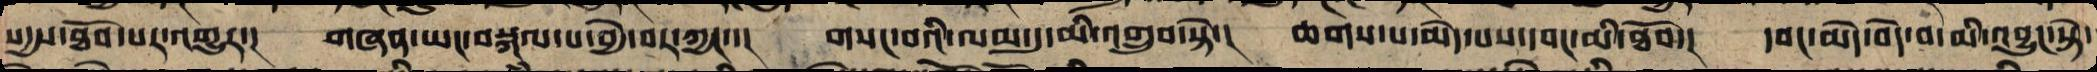སདྱས་ཐོབ་པར་འགྱུར་། གཞན་ཡང་བསྐལ་པ་བྱེ་བར་ཡང་་། གསང་བའི་ལམ་དུ་མི་འགྲུབ་སྟེ་། ཆགས་པ་མེད་པས་དབང་མི་ཐོབ་། དབང་མེད་བདེ་བ་མི་འབྱུང་སྟེ་
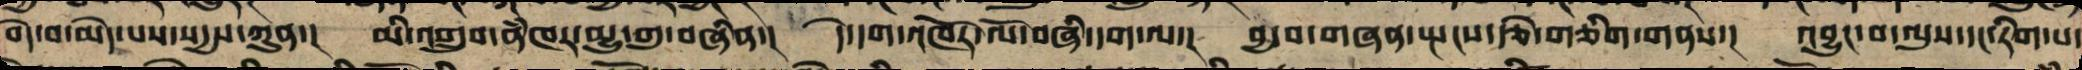བདེ་བ་མེད་པས་སདྱས་ཀུན་། མི་འགྲུབ་ནཾཁར་མྱུ་གུ་བཞིན་། དེ་དག་འཁོར་ལོ་བཞི་དག་ལ་། བྱ་བ་གཞན་སྤངས་རྩེ་གཅིག་གནས་། འབྱུང་བ་ལུས་དང་རིག་པ་
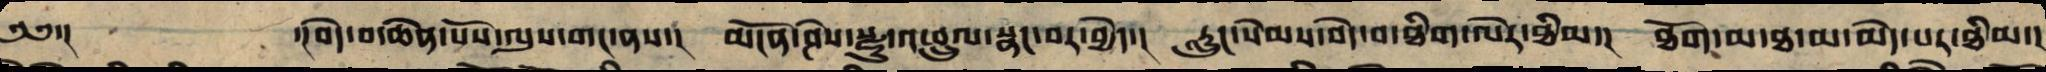༄༅་།  ་།བདེ་བ་ཆེན་པོས་ལུས་གང་ནས་། མངོན་ཤེས་སྫུ་འཕྲུལ་སྣང་བར་བྱེད་། རླུང་སེམས་བདེ་བ་ཐིག་ལེར་ཐིམ་། ཐོག་མ་ཐ་མ་མེད་པར་ཐིམ་།
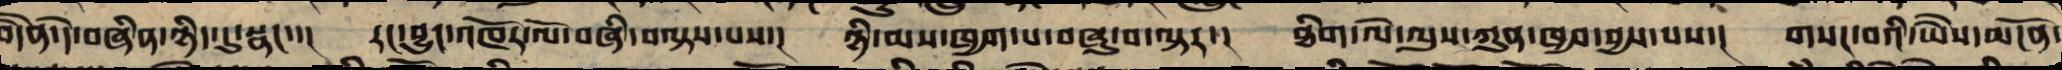བདཻན་དེ་བཞིན་ཉིད་དུ་སྣང་་། རང་བྱུང་འཁོར་ལོ་བཞི་བལྟས་པས་། ཉི་མས་ཁྱག་པ་བཞུ་བ་ལྟར་། ཐིག་ལེ་ལུས་ཀུན་ཁྱབ་བྱས་པས་། གསང་བའི་ཡཻས་མངོན་
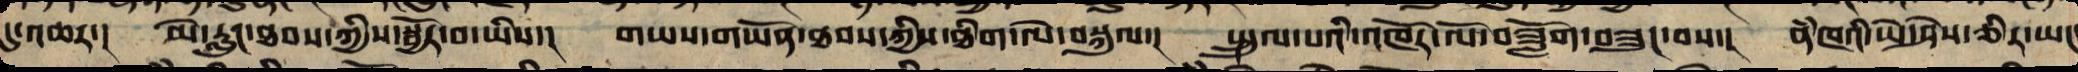དུ་འཆར་། མེ་རླུང་ཐབས་ཀྱི་སྦྱོར་བ་ཡིས་། གཡས་གཡོན་ཐབས་ཀྱི་ཐིག་ལེ་བསྐུལ་། སྤྲུལ་པའི་འཁོར་ལོར་བཟློག་བཟུང་བས་། ནཾཁའི་ཡེ་ཤེས་ཅིར་ཡང་
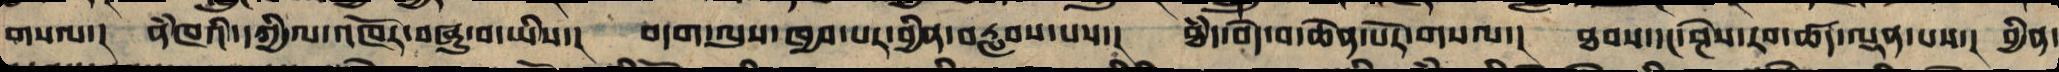གསལ་། ནཾཁའི་དཀྱིལ་འཁོར་བཞུ་བ་ཡིས་། བདག་ལུས་ཁྱབ་པར་བྱིན་བརླབས་པས་། ཐཾད་བདེ་བ་ཆེན་པོར་གསལ་། ཐབས་དང་ཤེས་རབ་ཚད་ལྡན་པས་། བྱིན་
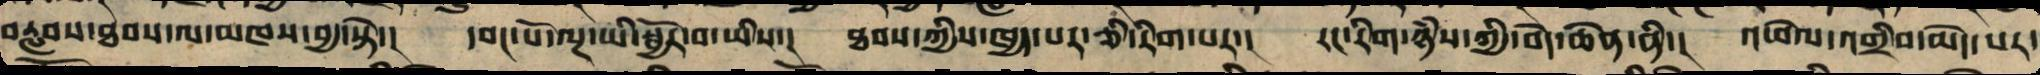བརླབས་ཐབས་ལ་མཁས་བྱ་སྟེ་། དབང་པོ་ལྔ་ཡི་སྦྱོར་བ་ཡིས་། ཐབས་ཀྱིས་ཁྱད་པར་ཅི་རིགས་པར་། རང་རིག་ཉཾས་ཀྱི་བདེ་ཆེན་ནི་། འཕེལ་འགྲིབ་མེད་པར་
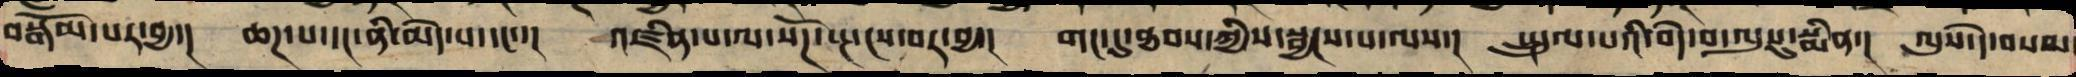བསྒོམ་པར་བྱ་། ཆཌ་པ་དང་ནི་མེད་པ་དང་་། འཛིན་པ་ལ་སོཌ་སྤངས་བར་བྱ་། གང་དུ་ཐབས་ཀྱིས་སྦྱངས་པ་ལས་། སྤྲུལ་པའི་བདེ་བ་ལུསུ་སྨིན་། ལུས་དེ་བསམ
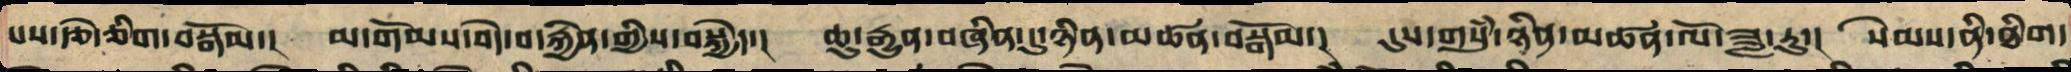པས་རྩེ་གཅིག་བསྒོམ་། མ་གོམས་བདེ་བ་རྐྱེན་གྱིས་བསྐྱེད་། ཆུ་རྒྱུན་བཞིན་དུ་ཉིན་མཚན་བསྒོམ་། དུས་གསུམ་ཉིན་མཚན་ལོ་ཟླ་རུ་། སེམས་ནི་ཐིག་
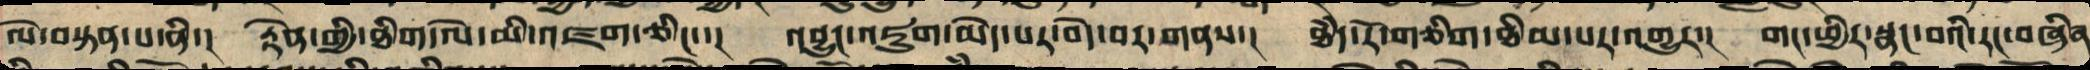ལེ་བསྟན་པ་ནི་། རྟེན་གྱི་ཐིག་ལེ་མི་འཛག་ཅིང་་། འབྱུང་འཇུག་མེད་པར་བདེ་བར་གསལ་། ཐཾད་རོ་གཅིག་ཐིམ་པར་འགྱུར་། གང་ཕྱིར་སྣང་བའི་རང་བཞིན
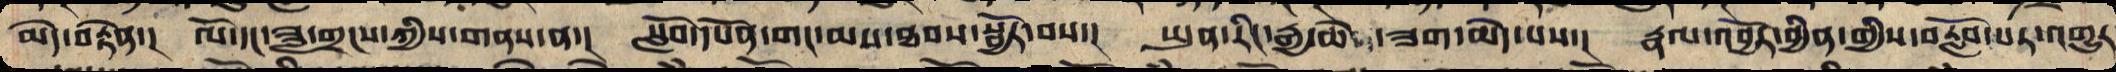མེད་བརྟེན་། ལོ་དང་ཟླ་གྲངས་ཀྱིས་གནས་ན་། སློབ་དཔོན་གོང་མས་ཐབས་སྦྱོར་བས་། ཡུན་རིང་རྒྱ་ཆེ་ཟག་མེད་པས་། རྣལ་འབྱོར་བྱིན་གྱིས་བརློབ་པར་འགྱུར
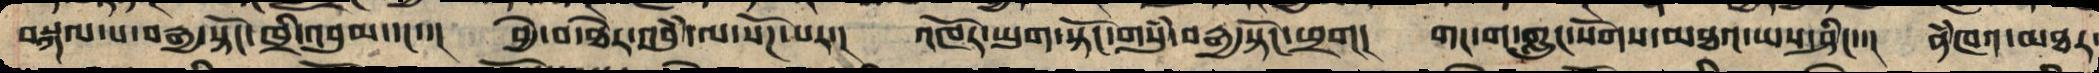བསྐལ་པ་བརྒྱ་སྟོང་ཁྲི་འབུམ་དང་་། བྱེ་བ་ཐེར་འབུཾ་ལ་སོཌ་པར་། འཁོར་ཡུག་སྟོང་གསུཾ་བརྒྱ་སྟོང་ཕྲག། གང་ག་ཀླུང་སོགས་མཐའ་ཡས་ཤིང་་། ནཾཁའ་མཐར་
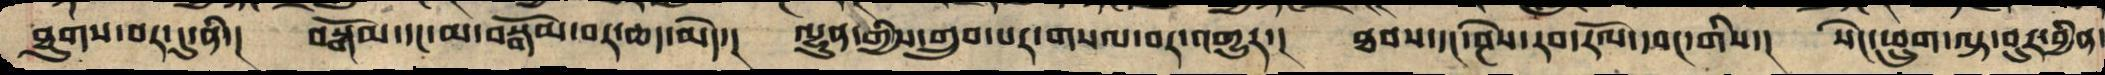ཐུག་བར་དུ་ནི་། བསྒོམ་དང་མ་བསྒོམས་བར་ཆད་མེད་། ལྷུན་གྱིས་གྲུབ་པར་གསལ་བར་འགྱུར་། ཐབས་དང་ཤེས་རབ་རོལ་དབང་གྱིས་། སེང་ཕྲུག་ལྟ་བུར་བྱིན་
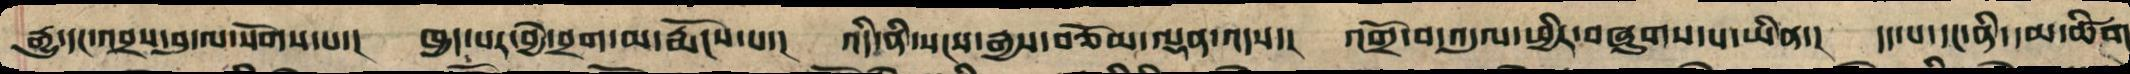རྒྱུ་དང་འབྲས་བུ་ལ་སོགས་པ་། ཁྱད་པར་བྱེ་བྲག་མ་རྨོངས་པ་། འདི་ནི་སངས་རྒྱས་བཅོམ་ལྡན་འདས་། འགྲོ་བ་འདུལ་ཕྱིར་བཞུགས་པ་ཡིན་། དད་པ་དང་ནི་དམ་ཚིག
